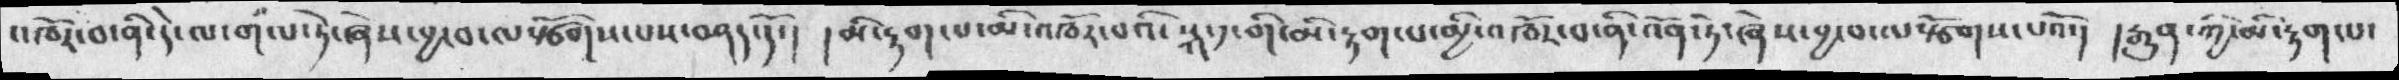འཁོར་བ་ནི་དེ་ལ་གལ་ཏེ་ཞེས་བྱ་བ་ལསྩོགས་པས་བཤད་དོ་། མི་རྟག་པ་མི་འཁོར་བའི་སྐ་༡་གི་མི་རྟག་པ་མྱི་འཁོར་བ་ནི་འོན་ཏེ་ཞེས་བྱ་བ་ལསྩོགས་པའོ་། །རྒྱུན་ཀྱི་མི་རྟག་པ་
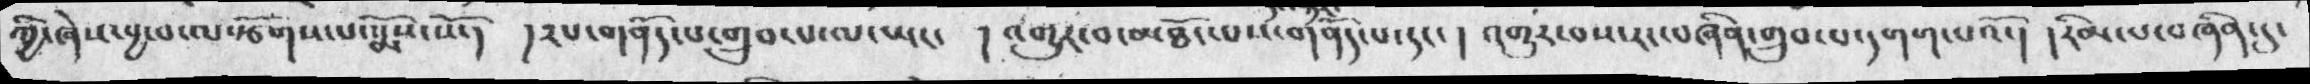ཀྱི་ཞེས་བྱ་བ་ལསྩོགས་པ་སྨོས་སོ་།  །༢པ་གནོད་པ་གྲུབ་པ་ལ་ཡང་  །འགྱུར་བ་མཐོང་པས་གནོད་པ་དང་། འགྱུར་བས་རང་བཞིན་གྲུབ་པ་དགག་པའོ་། །རིམ་པ་བཞིན་དུ་
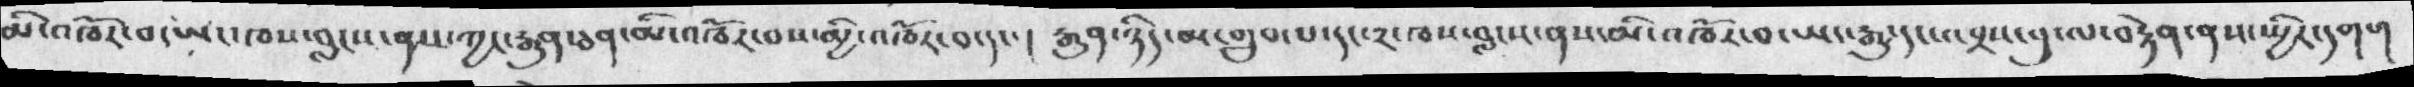མི་འཁོར་བ་ཡང་ཁས་བླངས་ནས་ཀྱང་རྒྱུན་ཅན་མི་འཁོར་བས་མྱི་འཁོར་བ་དང་།  རྒྱུན་ཉིད་མ་གྲུབ་པ་དང་༢་ཁས་བླངས་ནས་མི་འཁོར་བ་ཡང་རྒྱུ་དང་འབྲས་བུ་ལ་བརྟེན་ནས་སྤྱིར་དགག
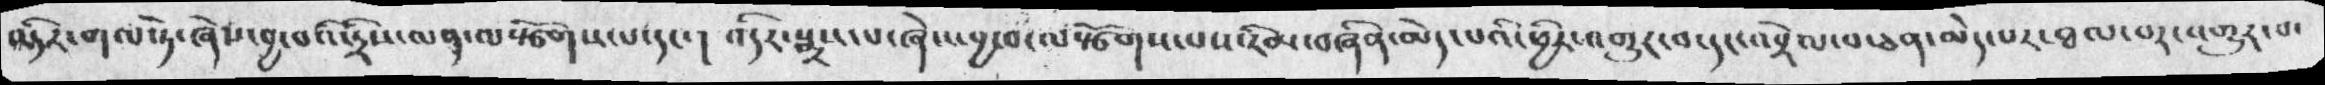འདིར་གལ་ཏེ་ཞེས་བྱ་བའི་དྲིས་ལན་ལསྩོགས་པ་དང་། འདིར་སྨྲས་པ་ཞེས་བྱ་བ་ལསྩོགས་པས་རིམ་བཞིན་མེད་པའོ་ཕྱིར་འགྱུར་བ་དང་འབྲེལ་བ་ཅན་མེད་པར་ཐལ་བར་འགྱུར་བ་
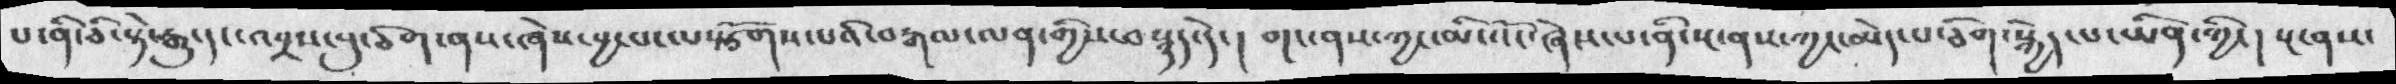པ་ནི་ཅི་སྟེ་རྒྱུ་དང་འབྲས་བུ་ཅིག་ནས་ཞེས་བྱ་བ་ལསྩོགས་པའི་བརྒལ་ལན་གྱིས་བསྙད་དེ་། གང་ནས་ཀྱང་མི་འོང་ཞེས་པ་ནི་སྔ་ནས་ཀྱང་མེད་པ་ཅིག་སྐྱེད་པ་ཡིན་ཀྱི་། སྔ་ནས་
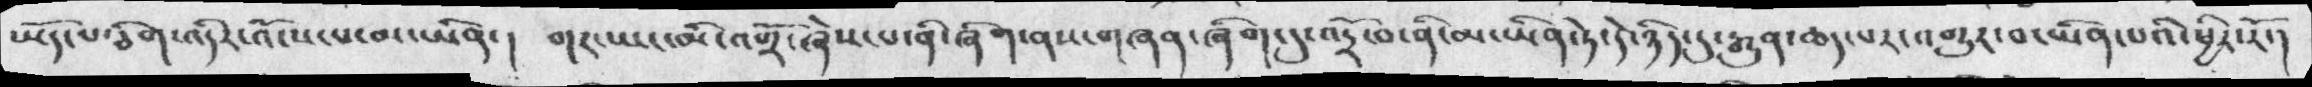ཡོད་པ་ཅིག་འདིར་འོངས་པ་མ་ཡིན་། གར་ཡང་མི་འགྲོ་ཞེས་པ་ནི་ཞིག་ནས་གཞན་ཞིག་དུ་འདྲོ་བ་ནི་མ་ཡིན་ཏེ་དེ་ཉིད་དུ་རྒྱུན་ཆད་པར་འགྱུར་བ་ཡིན་པའི་ཕྱིར་རོ་།
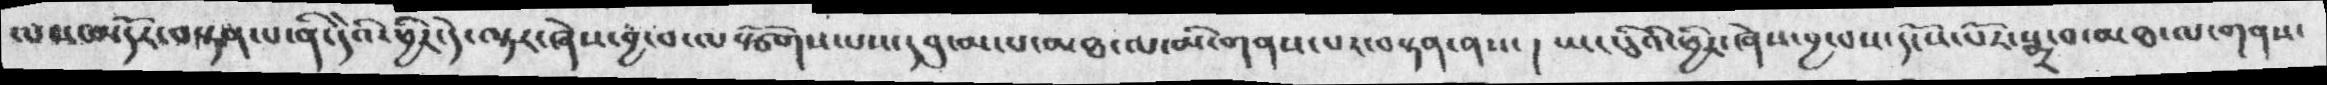ལས་མདོར་བསྟན་པ་ནི་དེའི་ཕྱིར་དེ་ལྟར་ཞེས་བྱ་བ་ལསྩོགས་པས་དབུ་མ་པ་མཐ་ལ་མི་གནས་པར་བསྟན་ནས་། ཡང་ཅིའི་ཕྱིར་ཞེས་བྱ་བས་དངོས་པོར་སྨྲ་བ་མཐ་ལ་གནས་
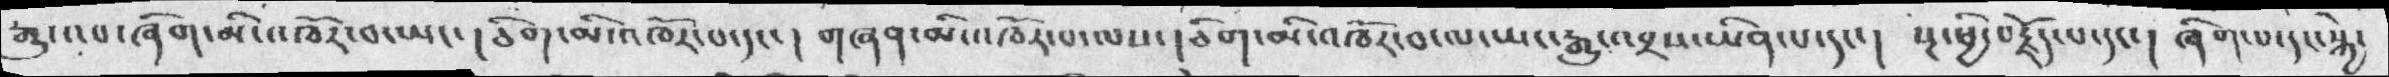རྒྱུ་འབ་ཞིག་མི་འཁོར་བ་ཡང་། ཅིག་མི་འཁོར་བ་དང་། གཞན་མི་འཁོར་བ་ལས་། ཅིག་མི་འཁོར་བ་ལ་ཡང་རྒྱུ་འབྲས་ཡིན་པ་དང་། སྔ་ཕྱི་བརྗོད་པ་དང་། ཞིག་པ་དང་སྐྱེ་
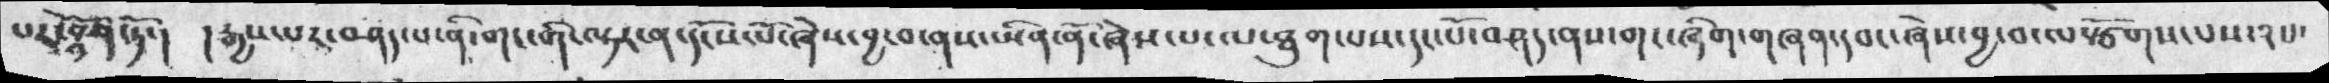པར་སྟོན་ཏོ་།   །རྒྱས་པར་བཤད་པ་ནི་གང་གི་ལྟར་ན་དངོས་པོ་ཞེས་བྱ་བ་ནས་སེན་ནོ་ཞེས་པ་ལ་ཐུག་པས་དང་པོ་བཤད་ནས་གང་ཞིག་གཞན་དབང་ཞེས་བྱ་བ་ལསྩོགས་པས་༢པ་
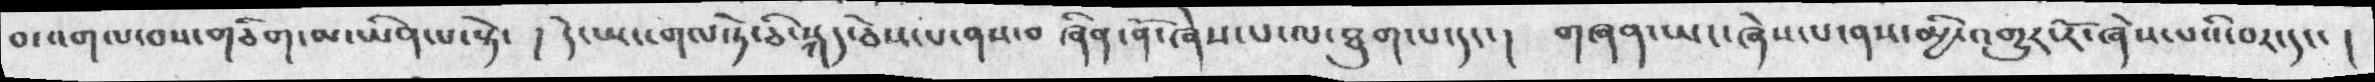བ་འགལ་བས་གཅིག་མ་ཡིན་པ་སྟེ་། དེ་ཡང་གལ་ཏེ་ཅི་སྐད་ཅེས་པ་ནས་བ ཞིན་ནོ་ཞེས་པ་ལ་ཐུག་པ་དང་། གཞན་ཡང་ཞེས་པ་ནས་མྱི་འགྱུར་རོ་ཞེས་པའི་བར་དང་།
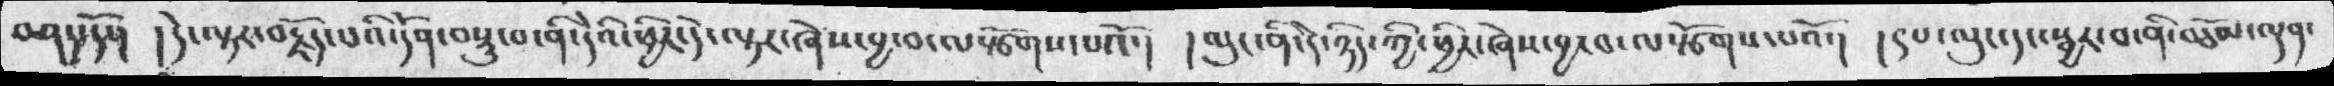བཤད་དོ་། །དེ་ལྟར་བརྗོད་པའི་དོན་བསྡུ་བ་ནི་དེའིཕྱིར་དེ་ལྟར་ཞེས་བྱ་བ་ལསྩོགས་པའོ་། །ལུང་ནི་དེ་ཉིད་ཀྱི་ཕྱིར་ཞེས་བྱ་བ་ལསྩོགས་པའོ་། །༩པ་ལུང་དང་སྦྱར་བ་ནི་བཅོམ་ལྡན་
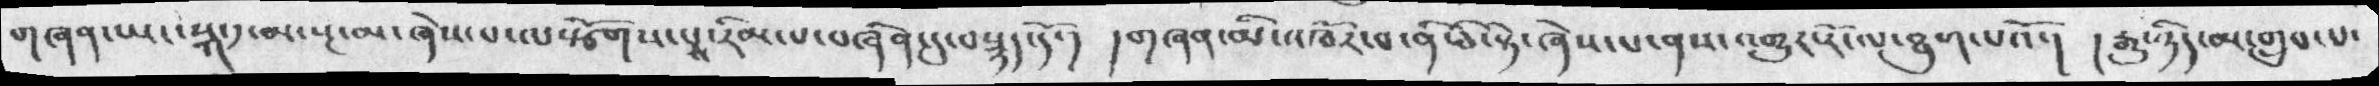གཞན་ཡང་སྐ་༡་མ་སྔ་མ་ཞེས་པ་ལསྩོགས་པས་རིམ་པ་བཞིན་དུ་བསྙད་དོ་།  ། གཞན་མི་འཁོར་བ་ནི་ཅི་སྟེ་ཞེས་པ་ནས་གྱུར་རོ་ལ་ཐུག་པའོ་།  ། རྒྱུ་ཉིད་མ་གྲུབ་པ་
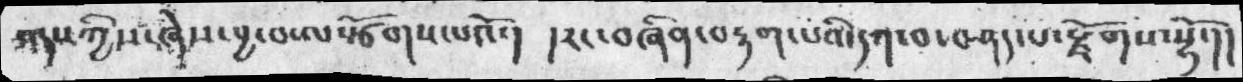འདས་ཀྱིས་ཞེས་བྱ་བ་ལསྩོགས་པའོ་། །རང་བཞིན་བརྟག་པའི་དག་བ་བཤད་པ་རྫོགས་སྷོ་།།
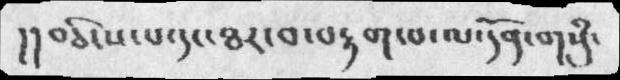།།བཅིངས་པ་དང་ཐར་བ་བརྟག་པ་ལ་དོན་གསུཾ་
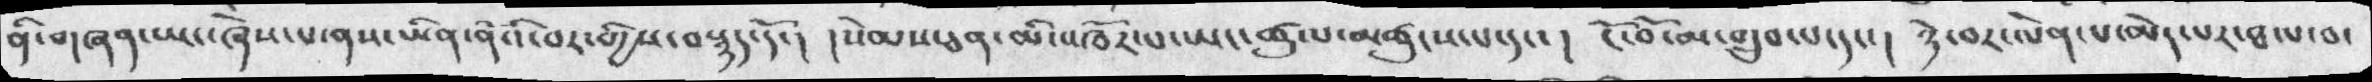ནི་གཞན་ཡང་ཞེས་པ་ནས་ཡིན་ནའི་བར་གྱིས་བསྙད་དོ་། །སེམས་ཅན་མི་འཁོར་པ་ཡང་ཚུལ་མཚུངས་པ་དང་། ངོ་བོ་མ་གྲུབ་པ་དང་། ཉེ་བར་ལེན་པ་མེད་པར་ཐལ་བ་
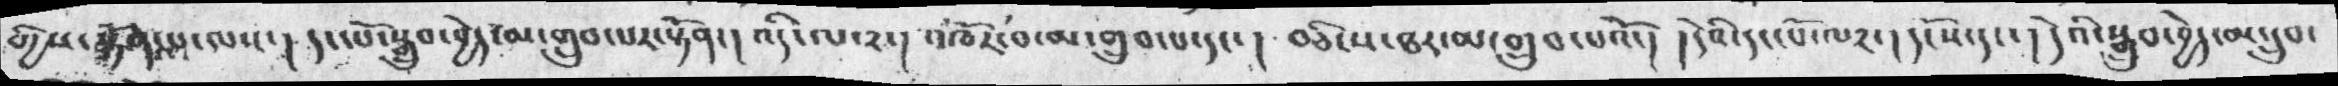གྱིས་སྟོན་པ་ལས་། དང་པོ་སྒྲུབ་བྱེད་མ་གྲུབ་པར་སྟོན་། འདི་ལ་༢་། འཁོར་བ་མ་གྲུབ་པ་དང་། བཅིངས་ཐར་མ་གྲུབ་པའོ་། །དེའི་དང་པོ་ལ༢་། དངོས་དང་། དེའི་སྒྲུབ་བྱེད་མ་དྲུབ་
